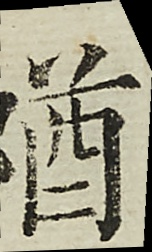蝤
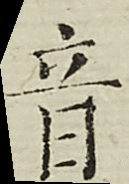音
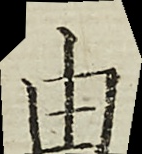由
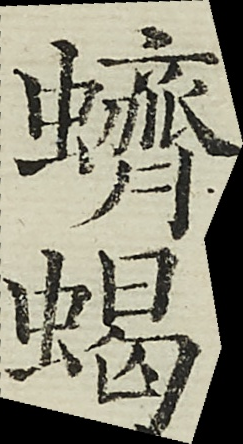蠐蠍
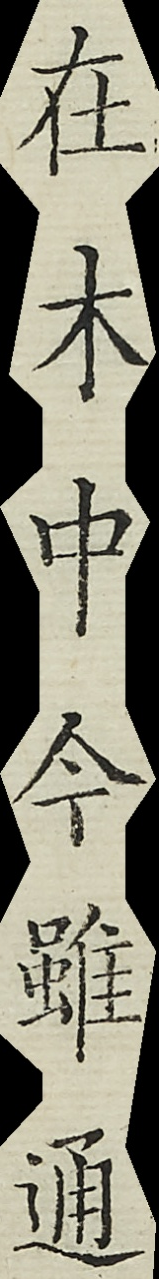在木中今雖通
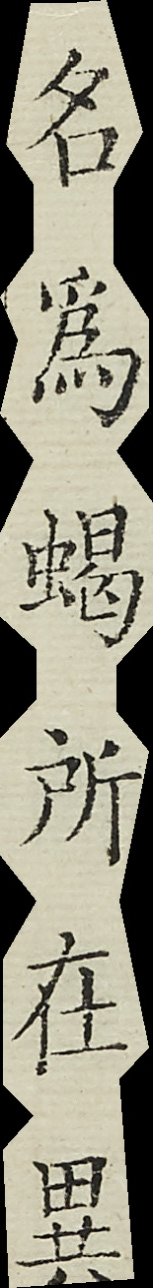名為蠍所在異
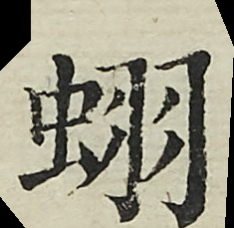蛡
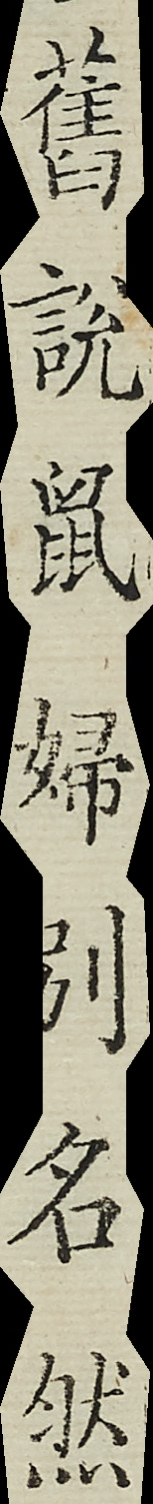舊說鼠婦別名然
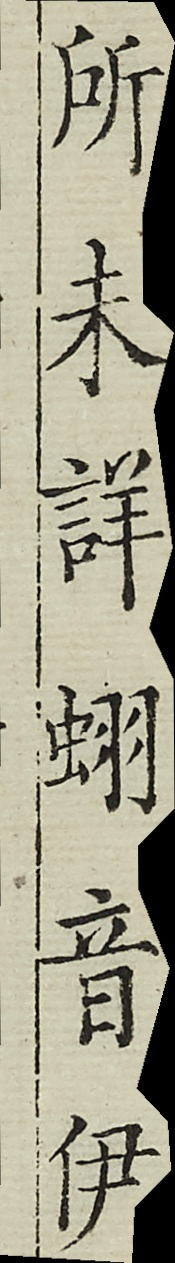所未詳蛡音伊
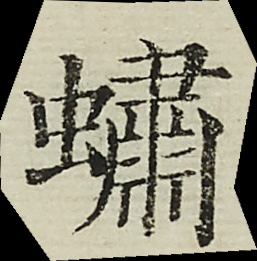蟰
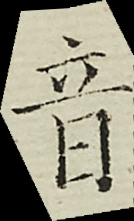音
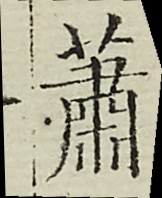簫
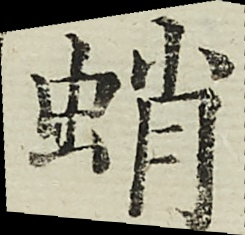蛸
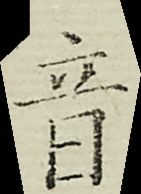音
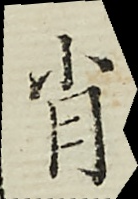肖
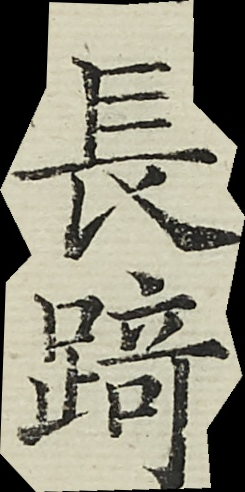長踦
